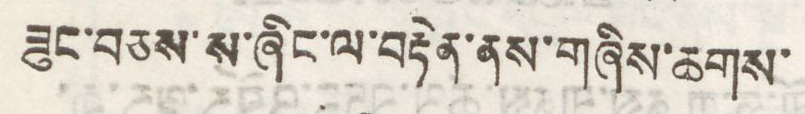ཟུང་བཅས་ས་ཞིང་ལ་བརྟེན་ནས་གཞིས་ཆགས་
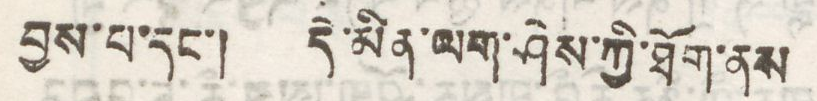བྱས་པ་དང་། དེ་མིན་ལག་ཤེས་ཀྱི་ཐོག་ནས
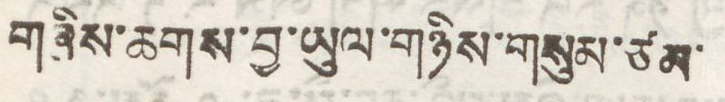གཞིས་ཆགས་བྱ་ཡུལ་གཉིས་གསུམ་ཙམ་
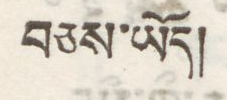བཅས་ཡོད།
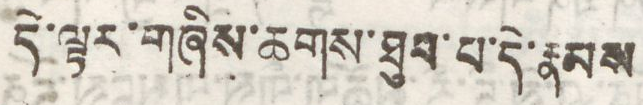དེ་ལྟར་གཞིས་ཆགས་ཐུབ་པ་དེ་རྣམས
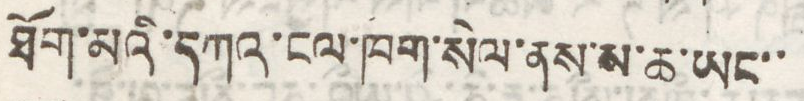ཐོག་མ་དཀའ་ངལ་ཁག་སེལ་ནས་ས་ཆ་ཡང་་
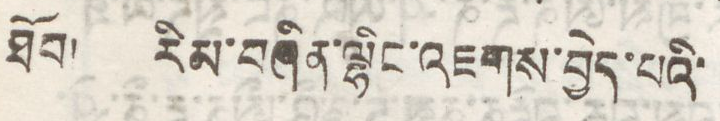ཐོབ། རིམ་བཞིན་ལྷིང་འཇགས་བྱེད་པའི་
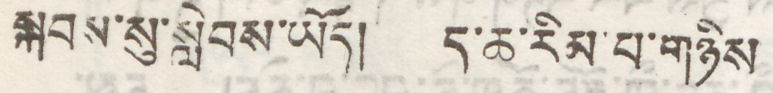སྐབས་སུ་སླེབས་ཡོད། ད་ཆ་རིམ་པ་གཉིས
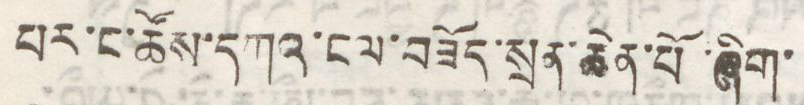པར་ང་ཚོས་དཀའ་ངལ་བཟོད་སྲན་ཆེན་པོ་ཞིག་
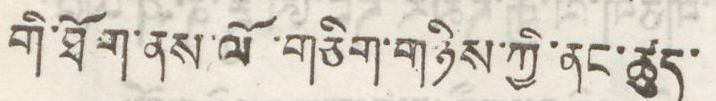གི་ཐོག་ནས་ལོ་གཅིག་གཉིས་ཀྱི་ནང་ཚུད་
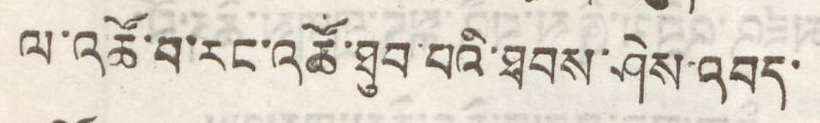ལ་འཚོ་བ་རང་འཚོ་ཐུབ་པའི་ཐབས་ཤེས་འབད་
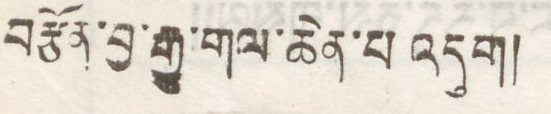བརྩོན་བྱ་རྒྱུ་གལ་ཆེན་པ འདུག།
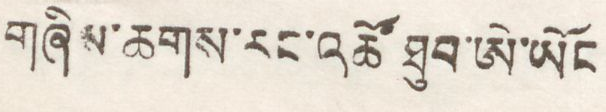གཞིས་ཆགས་རང་འཚོ་ཐུབ་ཨེ་ཡོང
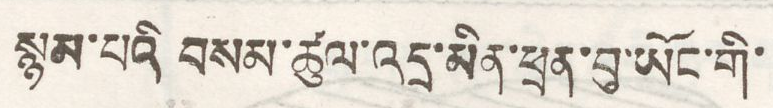སྙམ་པའི བསམ་ཚུལ་དྲན་མིན་ཕྲན་བུ་ཡོང་གི་
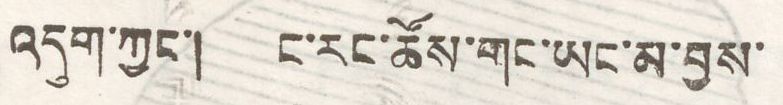འདུག་ཀྱང་། ང་རང་ཚོས་གང་ཡང་མ་བྱས་
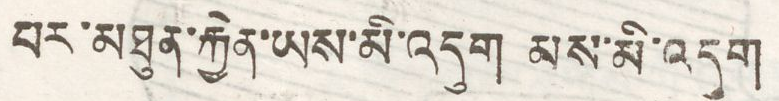པར་མཐུན་རྐྱེན་ཡས་མི་འདུག མས་མི་འདུག
